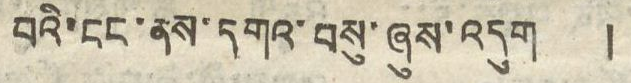བའི་ངང་ནས་དགའ་བསུ་ཞུས་འདུག །
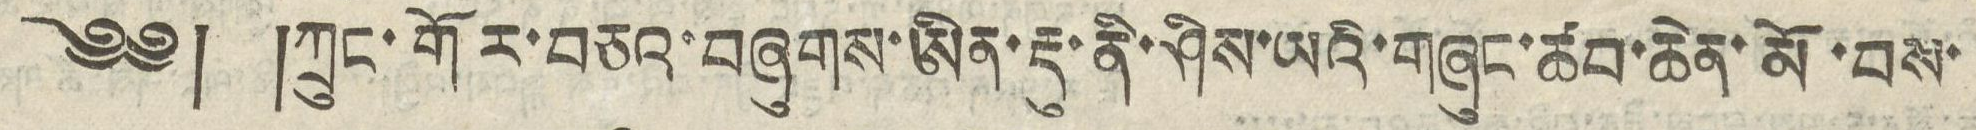༄༅། །ཀྲུང་གོར་བཅའ་བཞུགས་ཨིན་རྡུ་ནི་ཤིས་ཡའི་གཞུང་ཚབ་ཆེན་མོ་བས་
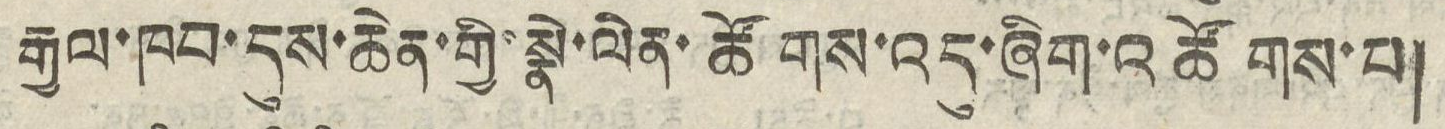རྒྱལ་ཁབ་དུས་ཆེན་གྱི་སྣེ་ལེན་ཚོགས་འདུ་ཞིག་འཚོགས་པ།
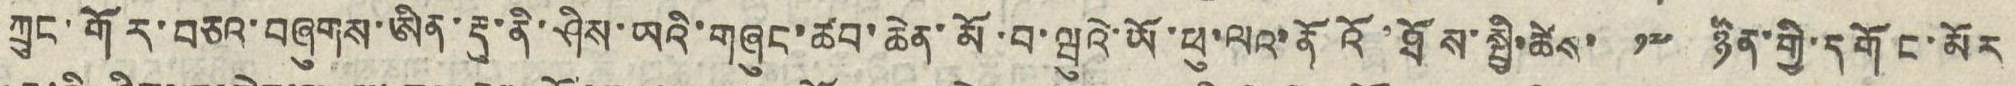ཀྲུང་གོར་བཅའ་བཞུགས་ཨིན་རྡུ་ནི་ཤིས་ཡའི་གཞུང་ཚབ་ཆེན་མོ་བ་ཝུའེ་ཡོ་ཕུ་ལའ་ནོའོ་ཐོས་སྤྱི་ཚེས་ ༡༧ ཉིན་གྱི་དགོང་མོར
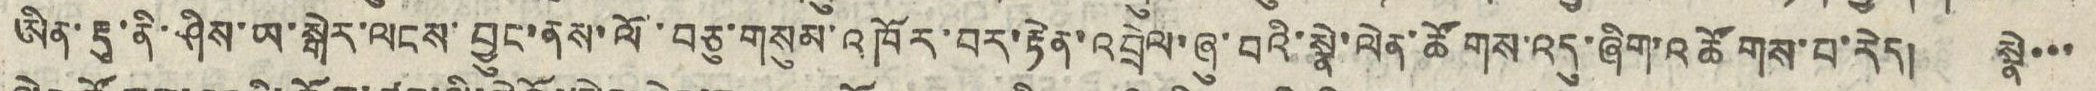ཨིན་རྡུ་ནི་ཤིས་ཡ་སྒེར་ལངས་བྱུང་ནས་ལོ་བཅུ་གསུམ་འཁོར་བར་རྟེན་འབྲེལ་ཞུ་བའི་སྣེ་ལེན་ཚོགས་འདུ་ཞིག་འཚོགས་པ་རེད། སྣེ་་་
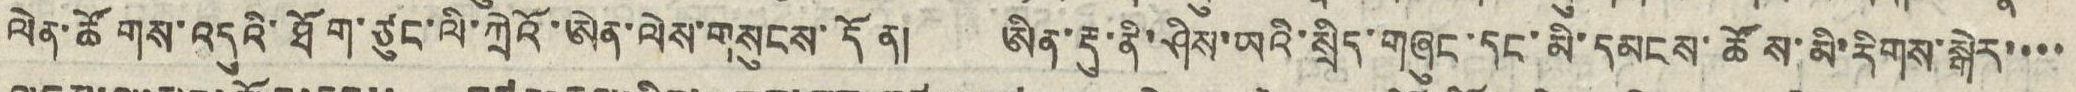ལེན་ཚོགས་འདུའི་ཐོག་ཙུང་ལི་ཀྲེའོ་ཨེན་ལེས་གསུངས་དོན། ཨིན་རྡུ་ནི་ཤིས་ཡའི་སྲིད་གཞུང་དང་མི་དམངས་ཚོས་མི་རིགས་སྒེར་་་་
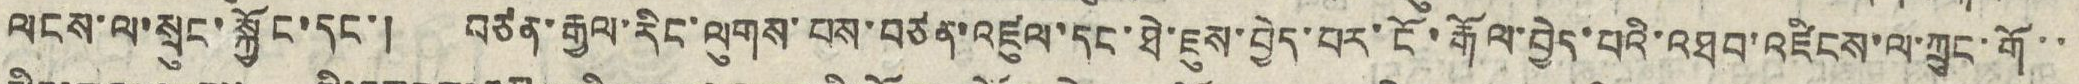ལངས་ལ་སྲུང་སྐྱོང་དང་། བཙན་རྒྱལ་རིང་ལུགས་པས་བཙན་འཛུལ་དང་ཐེ་ཇུས་བྱེད་པར་ངོ་རྒོལ་བྱེད་པའི་འཐབ་འཛིངས་ལ་ཀྲུང་གོ་་
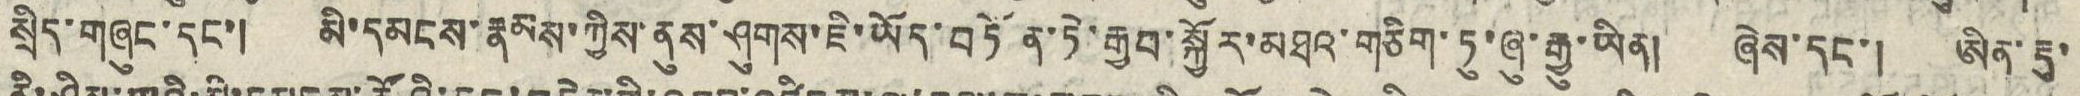སྲིད་གཞུང་དང་། མི་དམངས་རྣམས་ཀྱིས་ནུས་ཤུགས་ཇི་ཡོད་བཏོན་ཏེ་རྒྱབ་སྐྱོར་མཐའ་གཅིག་ཏུ་ཞུ་རྒྱུ་ཡིན། ཞེས་དང་། ཨིན་རྡུ་
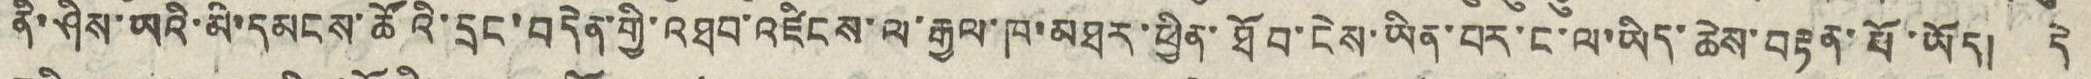ནི་ཤིས་ཡའི་མི་དམངས་ཚོའི་དྲང་བདེན་གྱི་འཐབ་འཛིངས་ལ་རྒྱལ་ཁ་མཐར་ཕྱིན་ཐོབ་ངེས་ཡིན་པར་ང་ལ་ཡིད་ཆེས་བརྟན་པོ་ཡོད། དེ
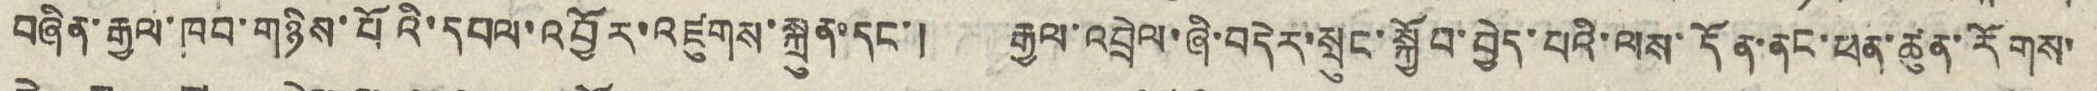བཞིན་རྒྱལ་ཁབ་གཉིས་པོའི་དཔལ་འབྱོར་འཛུགས་སྐྲུན་དང་། རྒྱལ་འབྲེལ་ཞི་བདེར་སྲུང་སྐྱོབ་བྱེད་པའི་ལས་དོན་ནང་ཕན་ཚུན་རོགས་
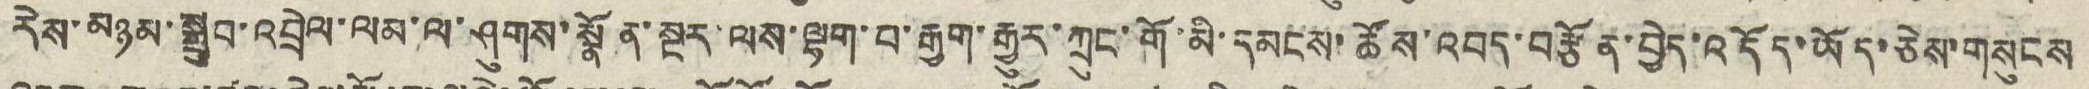རེས་མཉམ་སྒྲུབ་འབྲེལ་ལམ་ལ་ཤུགས་སྣོན་སྔར་ལས་ལྷག་པ་རྒྱག་རྒྱུར་ཀྲུང་གོ་མི་དམངས་ཚོས་འབད་བརྩོན་བྱེད་འདོད་ཡོད་ཅེས་གསུངས
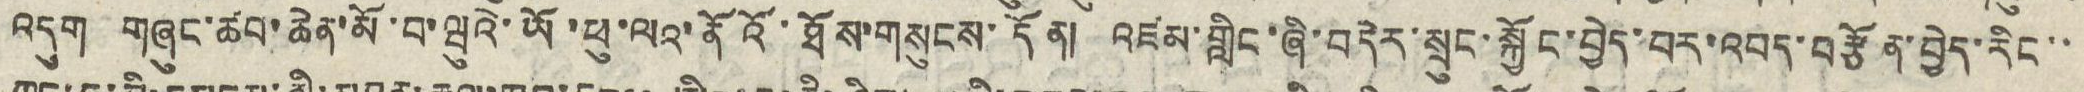འདུག གཞུང་ཚབ་ཆེན་མོ་བ་ཝུའེ་ཡོ་ཕུ་ལའ་ནོའོ་ཐོས་གསུངས་དོན། འཛམ་གླིང་ཞི་བདེར་སྲུང་སྐྱོང་བྱེད་པར་འབད་བརྩོན་བྱེད་རིང་་
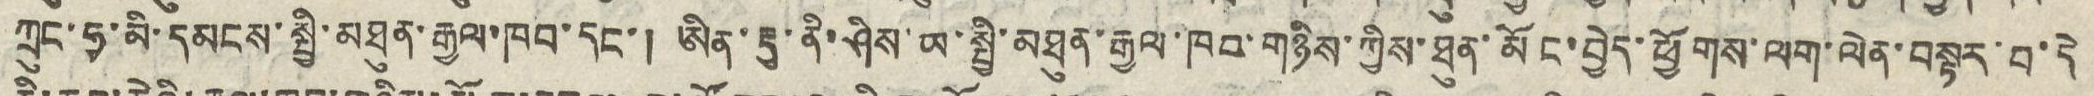ཀྲུང་ཧྭ་མི་དམངས་སྤྱི་མཐུན་རྒྱལ་ཁབ་དང་། ཨིན་རྡུ་ནི་ཤིས་ཡ་སྤྱི་མཐུན་རྒྱལ་ཁབ་གཉིས་ཀྱིས་ཐུན་མོང་བྱེད་ཕྱོགས་ལག་ལེན་བསྟར་བ་དེ
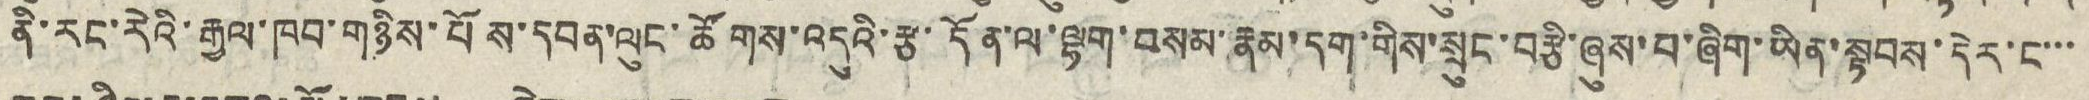ནི་རང་རེའི་རྒྱལ་ཁབ་གཉིས་པོས་དབན་ལུང་ཚོགས་འདུའི་རྩ་དོན་ལ་ལྷག་བསམ་རྣམ་དག་གིས་སྲུང་བརྩི་ཞུས་པ་ཞིག་ཡིན་སྟབས་དེར་ང་་་
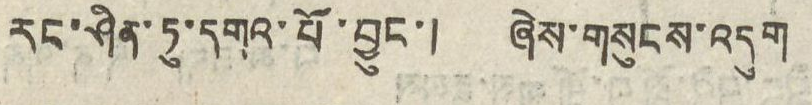རང་ཤིན་ཏུ་དགའ་པོ་བྱུང་། ཞེས་གསུངས་འདུག
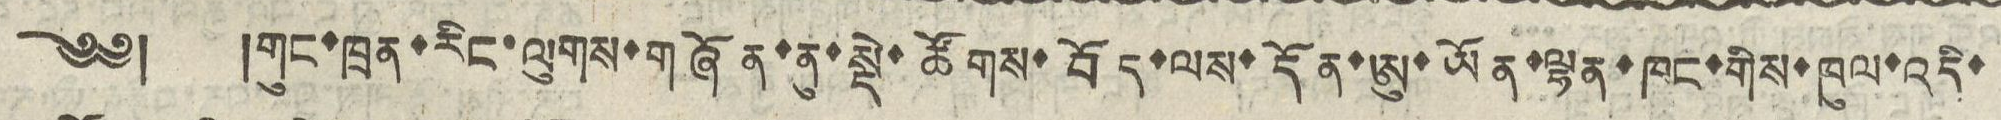༄༅། །གུང་ཁྲན་རིང་ལུགས་གཞོན་ནུ་སྡེ་ཚོགས་བོད་ལས་དོན་ཨུ་ཡོན་ལྷན་ཁང་གིས་ཁུལ་འདི་
